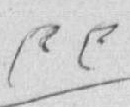༩༩
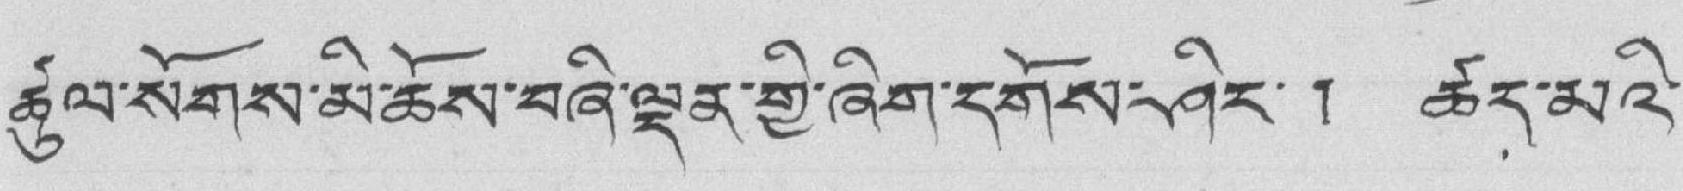ཚུལ་སོགས་མི་ཆོས་བཞི་ལྡན་གྱི་ཞིག་དགོས་ཤིང་། ཚད་མའི་
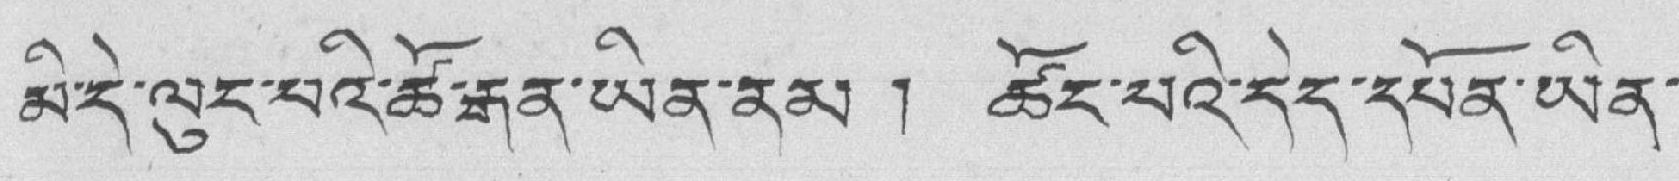མི་རེ་ལུང་པའི་ཚོ་རྒན་ཡིན་ནམ ། ཚོང་པའི་དེད་དཔོན་ཡིན་
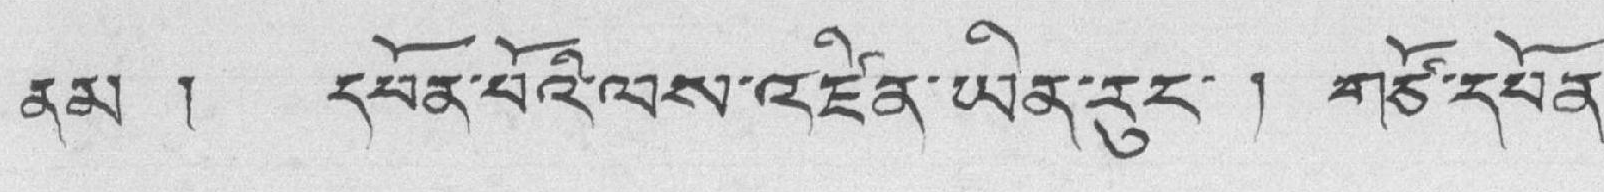ནམ ། དཔོན་པོའི་ལས་འཛིན་ཡིན་རུང་ ། གཙོ་དཔོན་
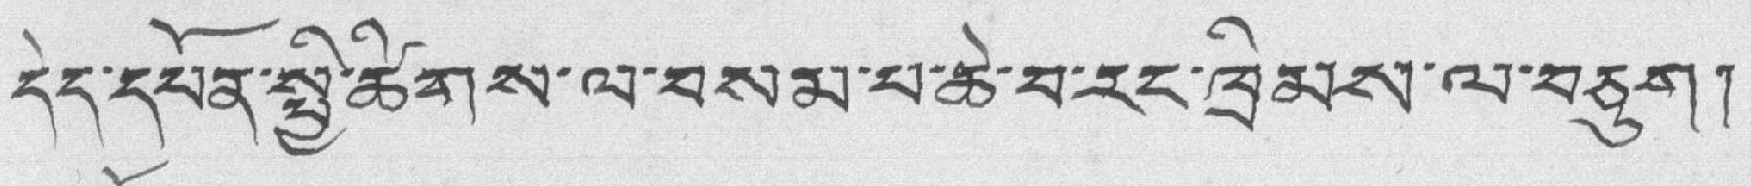དེད་དཔོན་སྤྱི་ཚིགས་ལ་བསམ་པ་ཆེ་བ་རང་ཁྲིམས་ལ་བཅུག །
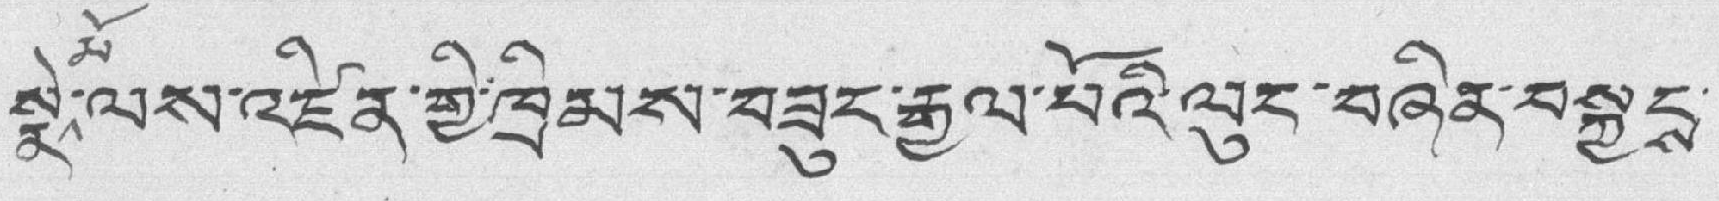སྣེ་མོ་ལས་འཛིན་གྱི་ཁྲིམས་བཟུང་རྒྱལ་པོའི་ལུང་བཞིན་བསྐྱངས་
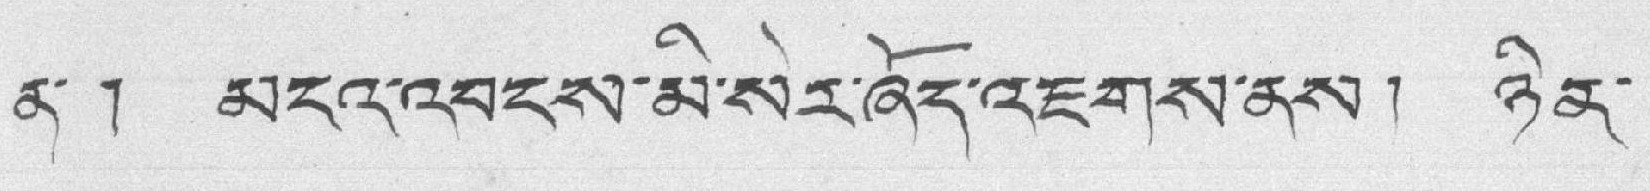ན་ ། མངའ་འབངས་མི་སེར་ཞོད་འཇགས་ནས། ཉིན་
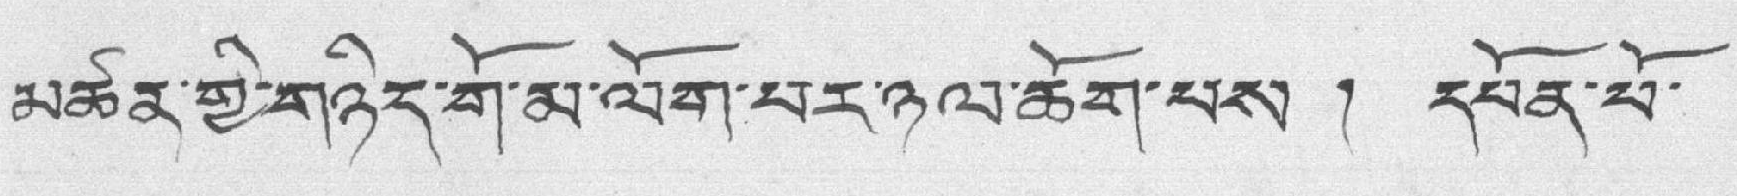མཚན་གྱི་གཉིད་གོ་མ་ལོག་པར་ཉལ་ཆོག་པས ། དཔོན་པོ་
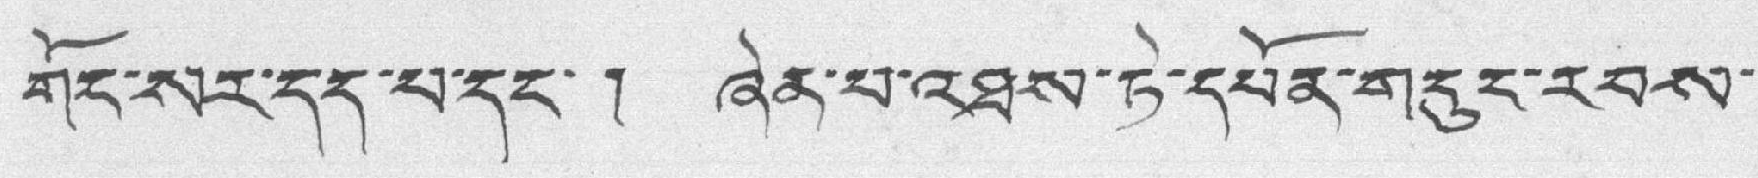གོང་སར་དད་པ་དང་ ། ཞེན་པ་འཐས་ཏེ་དཔོན་གསུང་རབས་
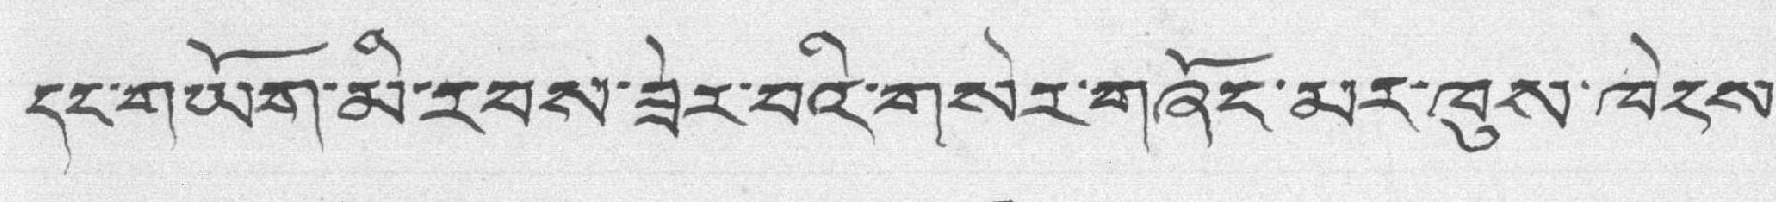དང་གཡོག་མི་རབས་ཟེར་བའི་གསེར་གཞོང་མར་ཁུས་ཁེངས་
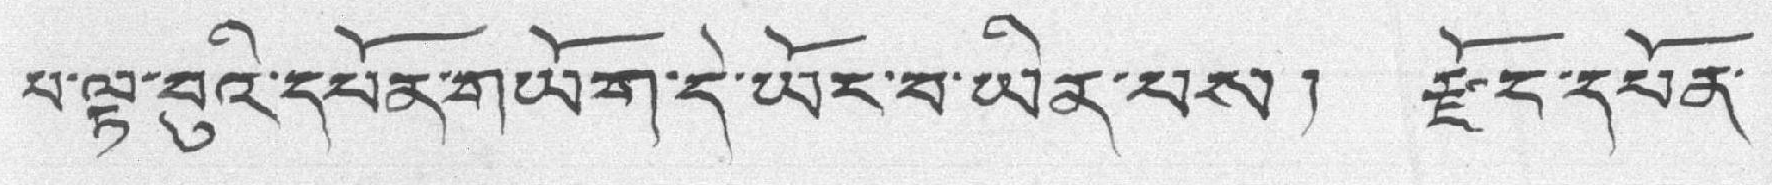པ་ལྟ་བུའི་དཔོན་གཡོག་དེ་ཡོང་བ་ཡིན་པས། རྫོང་དཔོན་
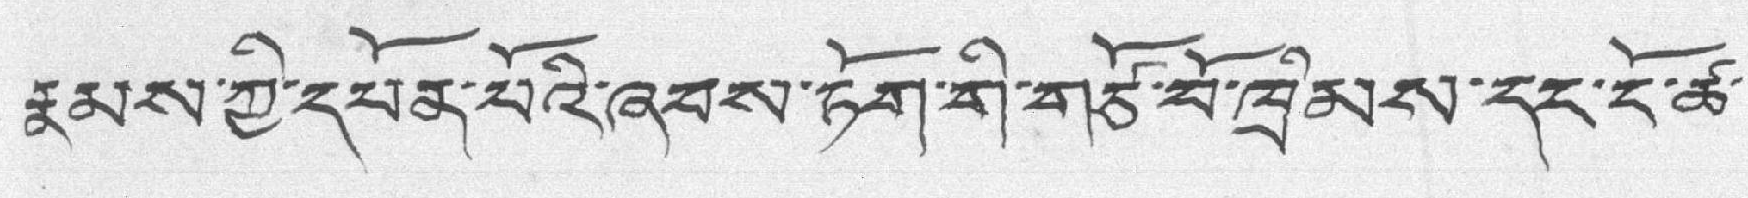རྣམས་ཀྱི་དཔོན་པོའི་ཞབས་ཏོག་གི་གཙོ་བོ་ཁྲིམས་དང་ངོ་ཚ་
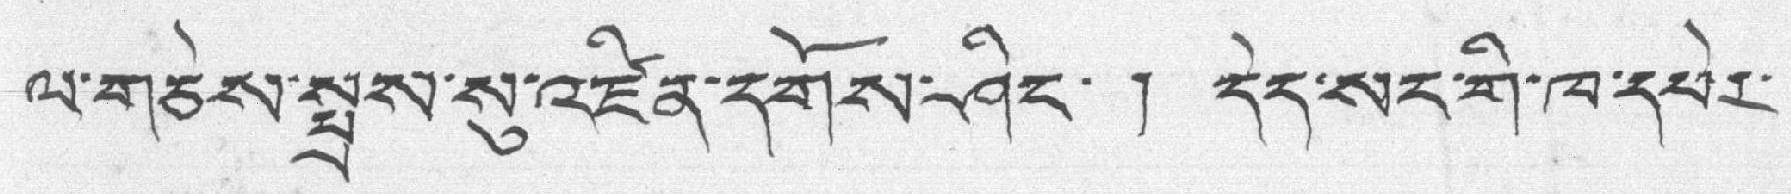ལ་གཅེས་སྤྲས་སུ་འཛིན་དགོས་ཤིང་ ། དེད་སང་གི་ཁ་དཔེར་
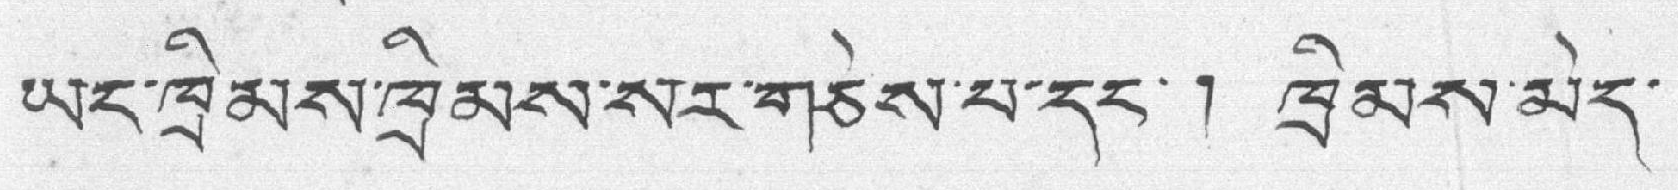ཡང་ཁྲིམས་ཁྲིམས་སར་གཅེས་པ་དང་། ཁྲིམས་མེད་
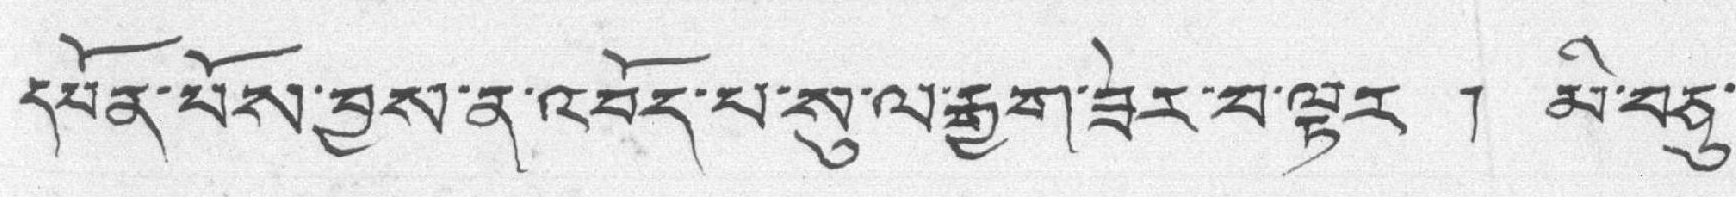དཔོན་པོས་བྱས་ན་འབོད་པ་སུ་ལ་རྒྱག་ཟེར་བ་ལྟར ། མི་བཅུ་
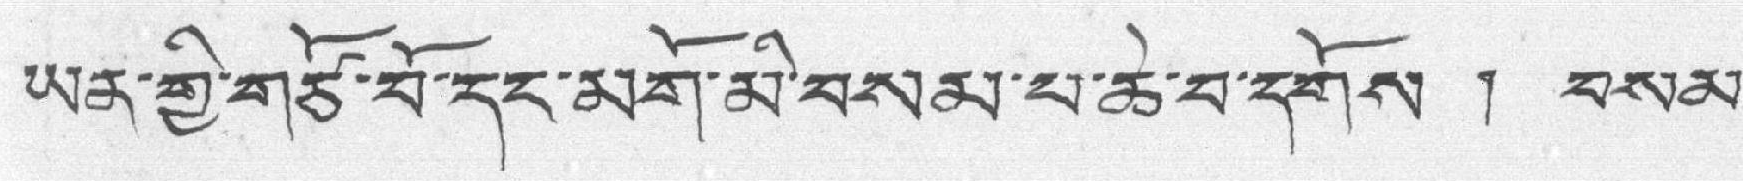ཡན་གྱི་གཙོ་བོ་རང་མགོ་མི་བསམ་པ་ཆེ་བ་དགོས ། བསམ་
